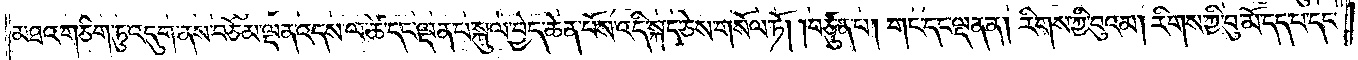མཐའ་གཅིག་ཏུ་འདུག་ནས་བཅོམ་ལྡན་འདས་ལ་ཚེ་དང་ལྡན་པ་སྐུལ་བྱེད་ཆེན་པོས་འདི་སྐད་ཅེས་གསོལ་ཏོ། །བཙུན་པ། གང་དང་ལྡན་ན། རིགས་ཀྱི་བུའམ། རིགས་ཀྱི་བུ་མོ་དད་པ་དང་
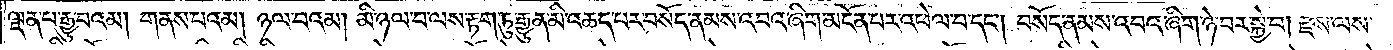ལྡན་པ་རྒྱུ་བའམ། གནས་པའམ། ཉལ་བའམ། མི་ཉལ་བ་ལས་རྟག་ཏུ་རྒྱུན་མི་འཆད་པར་བསོད་ནམས་འབའ་ཞིག་མངོན་པར་འཕེལ་བ་དང༌། བསོད་ནམས་འབའ་ཞིག་ཉེ་བར་སྐྱེ་བ། རྫས་ལས་
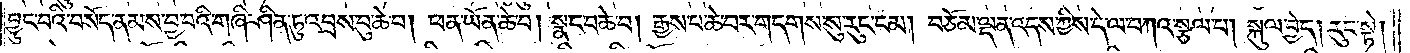བྱུང་བའི་བསོད་ནམས་བྱ་བའི་གཞི་ཤིན་ཏུ་འབྲས་བུ་ཆེ་བ། ཕན་ཡོན་ཆེ་བ། སྣང་བ་ཆེ་བ། རྒྱས་པ་ཆེ་བར་གདགས་སུ་རུང་ངམ། བཅོམ་ལྡན་འདས་ཀྱིས་དེ་ལ་བཀའ་སྩལ་པ། སྐུལ་བྱེད། རུང་སྟེ།
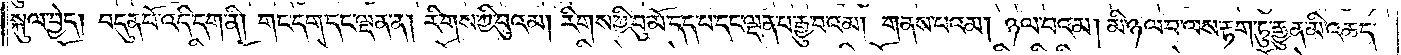སྐུལ་བྱེད། བདུན་པོ་འདི་དག་ནི། གང་དག་དང་ལྡན་ན། རིགས་ཀྱི་བུའམ། རིགས་ཀྱི་བུ་མོ་དད་པ་དང་ལྡན་པ་རྒྱུ་བའམ། གནས་པའམ། ཉལ་བའམ། མི་ཉལ་བ་ལས་རྟག་ཏུ་རྒྱུན་མི་འཆད་
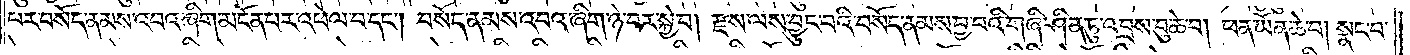པར་བསོད་ནམས་འབའ་ཞིག་མངོན་པར་འཕེལ་བ་དང༌། བསོད་ནམས་འབའ་ཞིག་ཉེ་བར་སྐྱེ་བ། རྫས་ལས་བྱུང་བའི་བསོད་ནམས་བྱ་བའི་གཞི་ཤིན་ཏུ་འབྲས་བུ་ཆེ་བ། ཕན་ཡོན་ཆེ་བ། སྣང་བ་
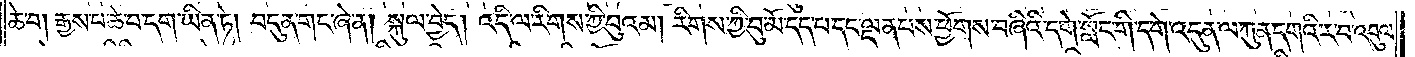ཆེ་བ། རྒྱས་པ་ཆེ་བ་དག་ཡིན་ཏེ། བདུན་གང་ཞེ་ན། སྐུལ་བྱེད། འདི་ལ་རིགས་ཀྱི་བུའམ། རིགས་ཀྱི་བུ་མོ་དད་པ་དང་ལྡན་པས་ཕྱོགས་བཞིའི་དགེ་སློང་གི་དགེ་འདུན་ལ་ཀུན་དགའི་ར་བ་འབུལ་
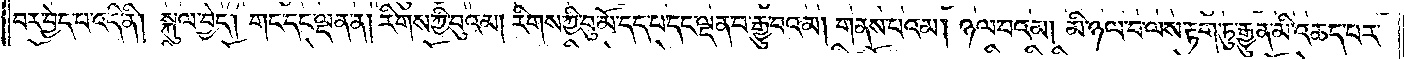བར་བྱེད་པ་འདི་ནི། སྐུལ་བྱེད། གང་དང་ལྡན་ན། རིགས་ཀྱི་བུའམ། རིགས་ཀྱི་བུ་མོ་དད་པ་དང་ལྡན་པ་རྒྱུ་བའམ། གནས་པའམ། ཉལ་བའམ། མི་ཉལ་བ་ལས་རྟག་ཏུ་རྒྱུན་མི་འཆད་པར་
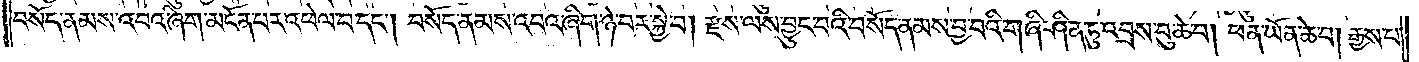བསོད་ནམས་འབའ་ཞིག་མངོན་པར་འཕེལ་བ་དང༌། བསོད་ནམས་འབའ་ཞིག་ཉེ་བར་སྐྱེ་བ། རྫས་ལས་བྱུང་བའི་བསོད་ནམས་བྱ་བའི་གཞི་ཤིན་ཏུ་འབྲས་བུ་ཆེ་བ། ཕན་ཡོན་ཆེ་བ། རྒྱས་པ་
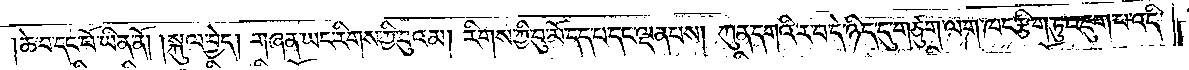།ཆེ་བ་དང་པོ་ཡིན་ནོ། །སྐུལ་བྱེད། གཞན་ཡང་རིགས་ཀྱི་བུའམ། རིགས་ཀྱི་བུ་མོ་དད་པ་དང་ལྡན་པས། ཀུན་དགའི་ར་བ་དེ་ཉིད་དུ་གཙུག་ལག་ཁང་རྩིག་ཏུ་འཇུག་པ་འདི་
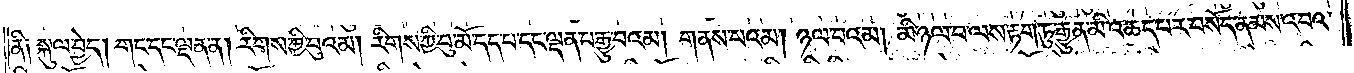ནི། སྐུལ་བྱེད། གང་དང་ལྡན་ན། རིགས་ཀྱི་བུའམ། རིགས་ཀྱི་བུ་མོ་དད་པ་དང་ལྡན་པ་རྒྱུ་བའམ། གནས་པའམ། ཉལ་བའམ། མི་ཉལ་བ་ལས་རྟག་ཏུ་རྒྱུན་མི་འཆད་པར་བསོད་ནམས་འབའ་
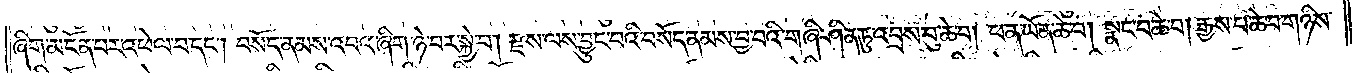ཞིག་མངོན་པར་འཕེལ་བ་དང༌། བསོད་ནམས་འབའ་ཞིག་ཉེ་བར་སྐྱེ་བ། རྫས་ལས་བྱུང་བའི་བསོད་ནམས་བྱ་བའི་གཞི་ཤིན་ཏུ་འབྲས་བུ་ཆེ་བ། ཕན་ཡོན་ཆེ་བ། སྣང་བ་ཆེ་བ། རྒྱས་པ་ཆེ་བ་གཉིས་
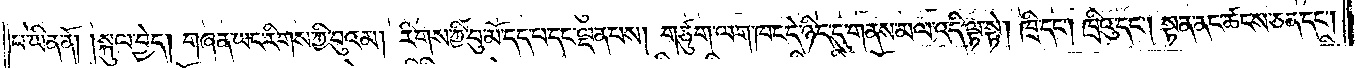པ་ཡིན་ནོ། །སྐུལ་བྱེད། གཞན་ཡང་རིགས་ཀྱི་བུའམ། རིགས་ཀྱི་བུ་མོ་དད་པ་དང་ལྡན་པས། གཙུག་ལག་ཁང་དེ་ཉིད་དུ་གནས་མལ་འདི་ལྟ་སྟེ། ཁྲི་དང༌། ཁྲིའུ་དང༌། སྟན་ནང་ཚངས་ཅན་དང༌།
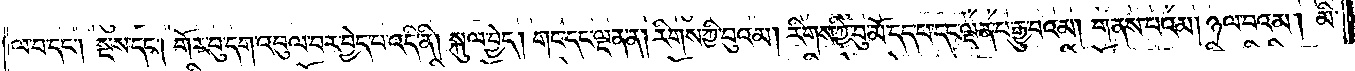ལ་བ་དང༌། སྔས་དང༌། གོར་བུ་དག་འབུལ་བར་བྱེད་པ་འདི་ནི། སྐུལ་བྱེད། གང་དང་ལྡན་ན། རིགས་ཀྱི་བུའམ། རིགས་ཀྱི་བུ་མོ་དད་པ་དང་ལྡན་པ་རྒྱུ་བའམ། གནས་པའམ། ཉལ་བའམ། མི་
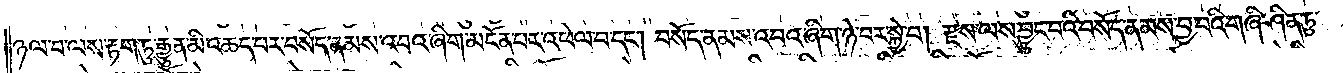ཉལ་བ་ལས་རྟག་ཏུ་རྒྱུན་མི་འཆད་པར་བསོད་ནམས་འབའ་ཞིག་མངོན་པར་འཕེལ་བ་དང༌། བསོད་ནམས་འབའ་ཞིག་ཉེ་བར་སྐྱེ་བ། རྫས་ལས་བྱུང་བའི་བསོད་ནམས་བྱ་བའི་གཞི་ཤིན་ཏུ་
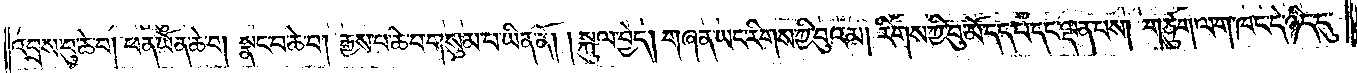འབྲས་བུ་ཆེ་བ། ཕན་ཡོན་ཆེ་བ། སྣང་བ་ཆེ་བ། རྒྱས་པ་ཆེ་བ་གསུམ་པ་ཡིན་ནོ། །སྐུལ་བྱེད། གཞན་ཡང་རིགས་ཀྱི་བུའམ། རིགས་ཀྱི་བུ་མོ་དད་པ་དང་ལྡན་པས། གཙུག་ལག་ཁང་དེ་ཉིད་དུ་
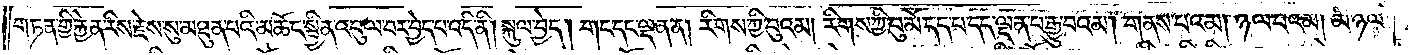གཏན་གྱི་རྐྱེན་རིས་རྗེས་སུ་མཐུན་པའི་མཆོང་སྦྱིན་འབུལ་བར་བྱེད་པ་འདི་ནི། སྐུལ་བྱེད། གང་དང་ལྡན་ན། རིགས་ཀྱི་བུའམ། རིགས་ཀྱི་བུ་མོ་དད་པ་དང་ལྡན་པ་རྒྱུ་བའམ། གནས་པའམ། ཉལ་བའམ། མི་ཉལ་
